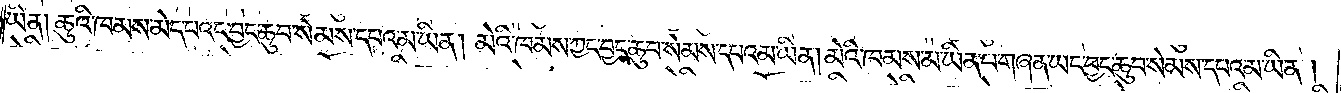ཡིན། ཆུའི་ཁམས་མེད་པའང་བྱང་ཆུབ་སེམས་དཔའ་མ་ཡིན། མེའི་ཁམས་ཀྱང་བྱང་ཆུབ་སེམས་དཔའ་མ་ཡིན། མེའི་ཁམས་མ་ཡིན་པ་གཞན་ཡང་བྱང་ཆུབ་སེམས་དཔའ་མ་ཡིན།
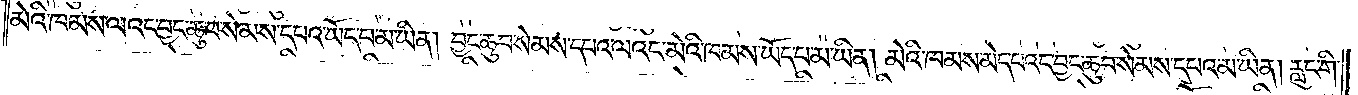མེའི་ཁམས་ལའང་བྱང་ཆུབ་སེམས་དཔའ་ཡོད་པ་མ་ཡིན། བྱང་ཆུབ་སེམས་དཔའ་ལའང་མེའི་ཁམས་ཡོད་པ་མ་ཡིན། མེའི་ཁམས་མེད་པའང་བྱང་ཆུབ་སེམས་དཔའ་མ་ཡིན། རླུང་གི་
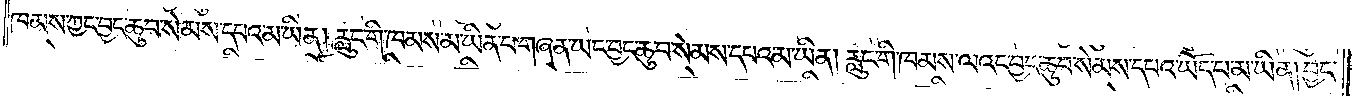ཁམས་ཀྱང་བྱང་ཆུབ་སེམས་དཔའ་མ་ཡིན། རླུང་གི་ཁམས་མ་ཡིན་པ་གཞན་ཡང་བྱང་ཆུབ་སེམས་དཔའ་མ་ཡིན། རླུང་གི་ཁམས་ལའང་བྱང་ཆུབ་སེམས་དཔའ་ཡོད་པ་མ་ཡིན། བྱང་
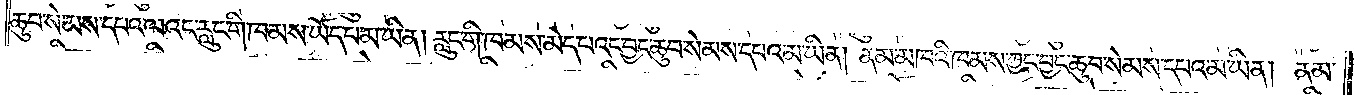ཆུབ་སེམས་དཔའ་ལའང་རླུང་གི་ཁམས་ཡོད་པ་མ་ཡིན། རླུང་གི་ཁམས་མེད་པའང་བྱང་ཆུབ་སེམས་དཔའ་མ་ཡིན། ནམ་མཁའི་ཁམས་ཀྱང་བྱང་ཆུབ་སེམས་དཔའ་མ་ཡིན། ནམ་
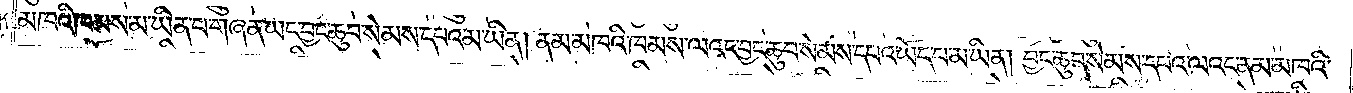མཁའི་ཁམས་མ་ཡིན་པ་གཞན་ཡང་བྱང་ཆུབ་སེམས་དཔའ་མ་ཡིན། ནམ་མཁའི་ཁམས་ལའང་བྱང་ཆུབ་སེམས་དཔའ་ཡོད་པ་མ་ཡིན། བྱང་ཆུབ་སེམས་དཔའ་ལའང་ནམ་མཁའི་
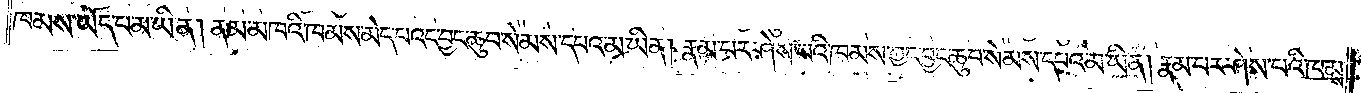ཁམས་ཡོད་པ་མ་ཡིན། ནམ་མཁའི་ཁམས་མེད་པའང་བྱང་ཆུབ་སེམས་དཔའ་མ་ཡིན། རྣམ་པར་ཤེས་པའི་ཁམས་ཀྱང་བྱང་ཆུབ་སེམས་དཔའ་མ་ཡིན། རྣམ་པར་ཤེས་པའི་ཁམས་
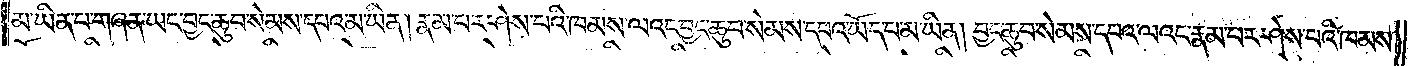མ་ཡིན་པ་གཞན་ཡང་བྱང་ཆུབ་སེམས་དཔའ་མ་ཡིན། རྣམ་པར་ཤེས་པའི་ཁམས་ལའང་བྱང་ཆུབ་སེམས་དཔའ་ཡོད་པ་མ་ཡིན། བྱང་ཆུབ་སེམས་དཔའ་ལའང་རྣམ་པར་ཤེས་པའི་ཁམས་
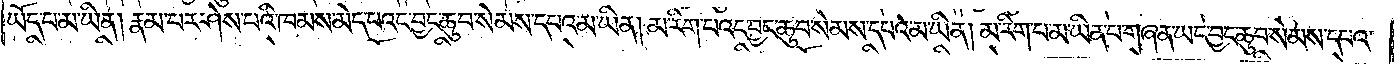ཡོད་པ་མ་ཡིན། རྣམ་པར་ཤེས་པའི་ཁམས་མེད་པའང་བྱང་ཆུབ་སེམས་དཔའ་མ་ཡིན། མ་རིག་པའང་བྱང་ཆུབ་སེམས་དཔའ་མ་ཡིན། མ་རིག་པ་མ་ཡིན་པ་གཞན་ཡང་བྱང་ཆུབ་སེམས་དཔའ་
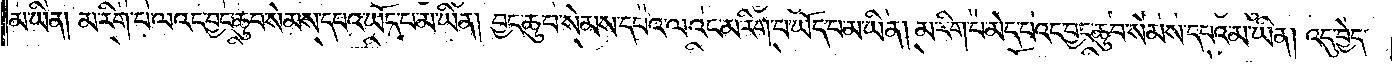མ་ཡིན། མ་རིག་པ་ལའང་བྱང་ཆུབ་སེམས་དཔའ་ཡོད་པ་མ་ཡིན། བྱང་ཆུབ་སེམས་དཔའ་ལའང་མ་རིག་པ་ཡོད་པ་མ་ཡིན། མ་རིག་པ་མེད་པའང་བྱང་ཆུབ་སེམས་དཔའ་མ་ཡིན། འདུ་བྱེད་
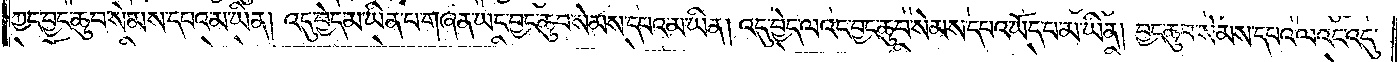ཀྱང་བྱང་ཆུབ་སེམས་དཔའ་མ་ཡིན། འདུ་བྱེད་མ་ཡིན་པ་གཞན་ཡང་བྱང་ཆུབ་སེམས་དཔའ་མ་ཡིན། འདུ་བྱེད་ལའང་བྱང་ཆུབ་སེམས་དཔའ་ཡོད་པ་མ་ཡིན། བྱང་ཆུབ་སེམས་དཔའ་ལའང་འདུ་
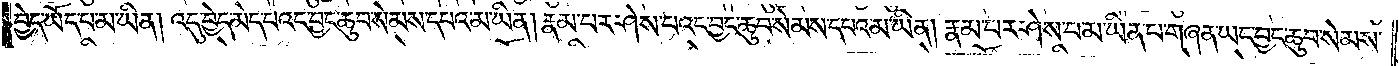བྱེད་ཡོད་པ་མ་ཡིན། འདུ་བྱེད་མེད་པའང་བྱང་ཆུབ་སེམས་དཔའ་མ་ཡིན། རྣམ་པར་ཤེས་པའང་བྱང་ཆུབ་སེམས་དཔའ་མ་ཡིན། རྣམ་པར་ཤེས་པ་མ་ཡིན་པ་གཞན་ཡང་བྱང་ཆུབ་སེམས་
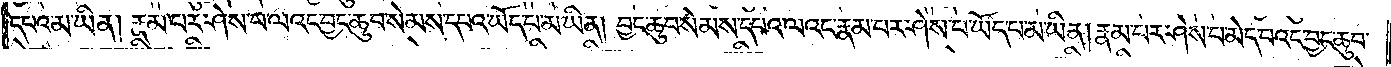དཔའ་མ་ཡིན། རྣམ་པར་ཤེས་པ་ལའང་བྱང་ཆུབ་སེམས་དཔའ་ཡོད་པ་མ་ཡིན། བྱང་ཆུབ་སེམས་དཔའ་ལའང་རྣམ་པར་ཤེས་པ་ཡོད་པ་མ་ཡིན། རྣམ་པར་ཤེས་པ་མེད་པའང་བྱང་ཆུབ་
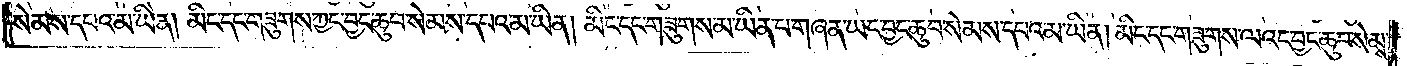སེམས་དཔའ་མ་ཡིན། མིང་དང་གཟུགས་ཀྱང་བྱང་ཆུབ་སེམས་དཔའ་མ་ཡིན། མིང་དང་གཟུགས་མ་ཡིན་པ་གཞན་ཡང་བྱང་ཆུབ་སེམས་དཔའ་མ་ཡིན། མིང་དང་གཟུགས་ལའང་བྱང་ཆུབ་སེམས་
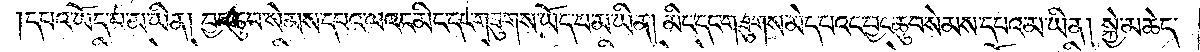དཔའ་ཡོད་པ་མ་ཡིན། བྱང་ཆུབ་སེམས་དཔའ་ལའང་མིང་དང་གཟུགས་ཡོད་པ་མ་ཡིན། མིང་དང་གཟུགས་མེད་པའང་བྱང་ཆུབ་སེམས་དཔའ་མ་ཡིན། སྐྱེ་མཆེད་
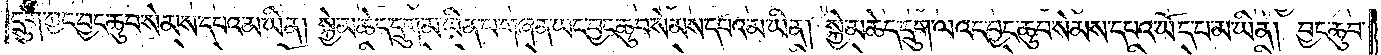དྲུག་ཀྱང་བྱང་ཆུབ་སེམས་དཔའ་མ་ཡིན། སྐྱེ་མཆེད་དྲུག་མ་ཡིན་པ་གཞན་ཡང་བྱང་ཆུབ་སེམས་དཔའ་མ་ཡིན། སྐྱེ་མཆེད་དྲུག་ལའང་བྱང་ཆུབ་སེམས་དཔའ་ཡོད་པ་མ་ཡིན། བྱང་ཆུབ་
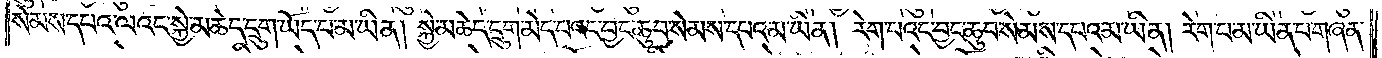སེམས་དཔའ་ལའང་སྐྱེ་མཆེད་དྲུག་ཡོད་པ་མ་ཡིན། སྐྱེ་མཆེད་དྲུག་མེད་པའང་བྱང་ཆུབ་སེམས་དཔའ་མ་ཡིན། རེག་པའང་བྱང་ཆུབ་སེམས་དཔའ་མ་ཡིན། རེག་པ་མ་ཡིན་པ་གཞན་
